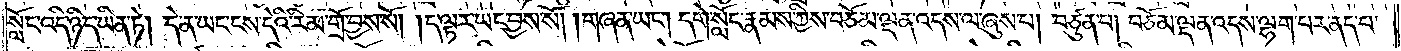སློང་འདི་ཉིད་ཡིན་ཏེ། དེ་ན་ཡང་ངས་དེའི་རིམ་གྲོ་བྱས་སོ། །ད་ལྟར་ཡང་བྱས་སོ། །གཞན་ཡང༌། དགེ་སློང་རྣམས་ཀྱིས་བཅོམ་ལྡན་འདས་ལ་ཞུས་པ། བཙུན་པ། བཅོམ་ལྡན་འདས་ལྷག་པར་ནད་པ་
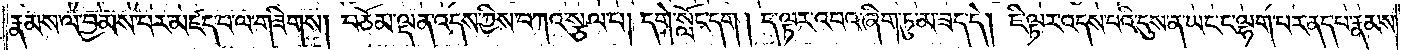རྣམས་ལ་བྱམས་པར་མཛད་པ་ལ་གཟིགས། བཅོམ་ལྡན་འདས་ཀྱིས་བཀའ་སྩལ་པ། དགེ་སློང་དག །ད་ལྟར་འབའ་ཞིག་ཏུ་མ་ཟད་དེ། ཇི་ལྟར་འདས་པའི་དུས་ན་ཡང་ང་ལྷག་པར་ནད་པ་རྣམས་
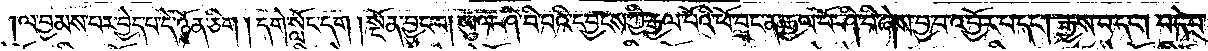ལ་བྱམས་པར་བྱེད་པ་དེ་ཉོན་ཅིག །དགེ་སློང་དག །སྔོན་བྱུང་བ། ཡུལ་ཤི་བི་པའི་དབྱངས་ཀྱི་རྒྱལ་པོའི་ཕོ་བྲང་ན་རྒྱལ་པོ་ཤི་བི་ཞེས་བྱ་བ་འབྱོར་པ་དང༌། རྒྱས་པ་དང༌། བདེ་བ་
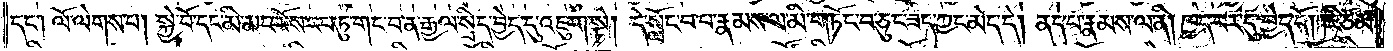དང༌། ལོ་ལེགས་པ། སྐྱེ་བོ་དང་མི་མང་པོས་རབ་ཏུ་གང་བ་ན་རྒྱལ་སྲིད་བྱེད་དུ་འཇུག་སྟེ། དེ་སློང་བ་པ་རྣམས་ལ་མི་གཏོང་བ་ཅུང་ཟད་ཀྱང་མེད་དེ། ནད་པ་རྣམས་ལ་ནི། ཁྱད་པར་དུ་བྱེད་དོ། །ཇི་ཙམ་
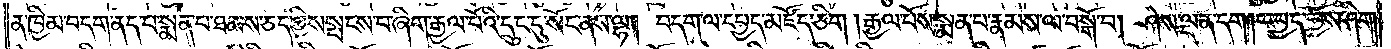ན་ཁྱིམ་བདག་ནད་པ་སྨན་པ་ཐམས་ཅད་ཀྱིས་སྤངས་པ་ཞིག་རྒྱལ་པོའི་དྲུང་དུ་སོང་ནས་ལྷ། བདག་ལ་དཔྱད་མཛོད་ཅིག །རྒྱལ་པོས་སྨན་པ་རྣམས་ལ་བསྒོ་བ། ཤེས་ལྡན་དག །དཔྱད་བྱོས་ཤིག །
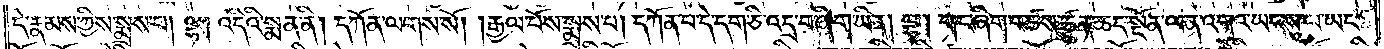དེ་རྣམས་ཀྱིས་སྨྲས་པ། ལྷ། འདིའི་སྨན་ནི། དཀོན་ལགས་སོ། །རྒྱལ་པོས་སྨྲས་པ། དཀོན་པ་དེ་དག་ཅི་འདྲ་བ་ཞིག་ཡིན། ལྷ། གང་ཞིག་བཙས་ཚུན་ཆད་སྔོན་ལན་འགའ་ཡང་སུ་ལ་ཡང་
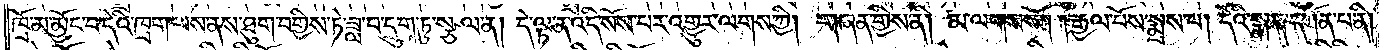ཁྲོ་མ་མྱོང་བ་དེའི་ཁྲག་ལས་ནས་ཐུག་བགྱིས་ཏེ་ཟླ་བ་དྲུག་ཏུ་སྩལ་ན། དེ་ལྟ་ན་འདི་སོས་པར་འགྱུར་ལགས་ཀྱི། གཞན་གྱིས་ནི། མ་ལགས་སོ། །རྒྱལ་པོས་སྨྲས་པ། དེའི་སྨན་དཀོན་པ་ནི།
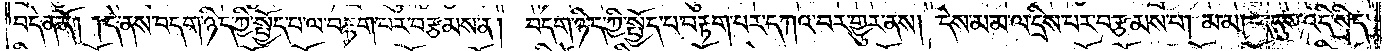བདེན་ནོ། །དེ་ནས་བདག་ཉིད་ཀྱི་སྤྱོད་པ་ལ་བརྟག་པར་བརྩམས་ན། བདག་ཉིད་ཀྱི་སྤྱོད་པ་ལ་བརྟགས་པར་དཀའ་བར་གྱུར་ནས། དེས་མ་མ་ལ་དྲིས་པར་བརྩམས་པ། མ་མ། ང་དུས་འདི་སྲིད་
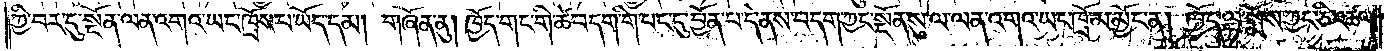ཀྱི་བར་དུ་སྔོན་ལན་འགའ་ཡང་ཁྲོས་པ་ཡོད་དམ། གཞོན་ནུ། ཁྱོད་གང་གི་ཚེ་བདག་གི་པར་དུ་བྱོན་པ་དེ་ནས་བདག་ཀྱང་སྔོན་སུ་ལ་ལན་འགའ་ཡང་ཁྲོ་མ་མྱོང་ན། ཁྱོད་ལྟ་སྨོས་ཀྱང་ཅི་འཚལ།
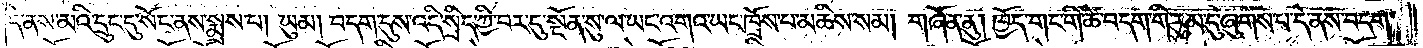དེ་ནས་མའི་དྲུང་དུ་སོང་ནས་སྨྲས་པ། ཡུམ། བདག་དུས་འདི་སྲིད་ཀྱི་བར་དུ་སྔོན་སུ་ལ་ཡང་འགའ་ཡང་ཁྲོས་པ་མཆིས་སམ། གཞོན་ནུ། ཁྱོད་གང་གི་ཚེ་བདག་གི་རུམ་དུ་ཞུགས་པ་དེ་ནས་བདག་
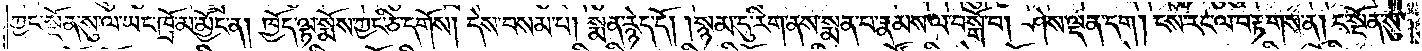ཀྱང་སྔོན་སུ་ལ་ཡང་ཁྲོ་མ་མྱོང་ན། ཁྱོད་ལྟ་སྨོས་ཀྱང་ཅི་དགོས། དེས་བསམ་པ། སྨན་རྙེད་དེ། །སྙམ་དུ་རིག་ནས་སྨན་པ་རྣམས་ལ་བསྒོ་བ། ཤེས་ལྡན་དག །ངས་རང་ལ་བརྟགས་ན། ང་སྔོན་སུ་
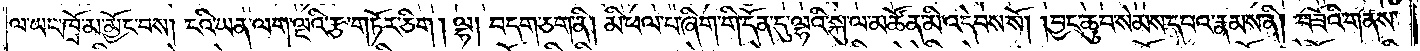ལ་ཡང་ཁྲོ་མ་མྱོང་བས། ངའི་ཡན་ལག་ལྔའི་རྩ་གཏོར་ཅིག །ལྷ། བདག་ཅག་ནི། མི་ཕལ་པ་ཞིག་གི་དོན་དུ་ལྷའི་སྐུ་ལ་མཚོན་མི་འདེབས་སོ། །བྱང་ཆུབ་སེམས་དཔའ་རྣམས་ནི། བཟོའི་གནས་
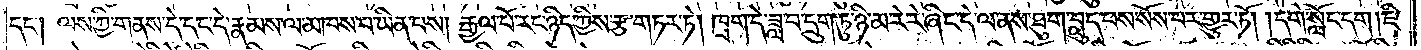དང༌། ལས་ཀྱི་གནས་དེ་དང་དེ་རྣམས་ལ་མཁས་པ་ཡིན་པས། རྒྱལ་པོ་རང་ཉིད་ཀྱིས་རྩ་གཏར་ཏེ། ཁྲག་དེ་ཟླ་བ་དྲུག་ཏུ་ཉི་མ་རེ་རེ་ཞིང་དེ་ལ་ནས་ཐུག་བླུད་པས་སོས་པར་གྱུར་ཏོ། །དགེ་སློང་དག །ཇི་
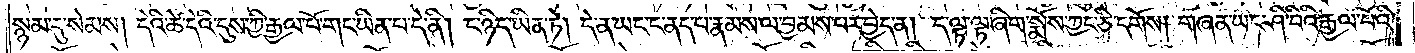སྙམ་དུ་སེམས། དེའི་ཚེ་དེའི་དུས་ཀྱི་རྒྱལ་པོ་གང་ཡིན་པ་དེ་ནི། ང་ཉིད་ཡིན་ཏེ། དེ་ན་ཡང་ང་ནད་པ་རྣམས་ལ་བྱམས་པར་བྱེད་ན། ད་ལྟ་ལྟ་ཞིག་སྨོས་ཀྱང་ཅི་དགོས། གཞན་ཡང་ཤི་བིའི་རྒྱལ་པོའི་
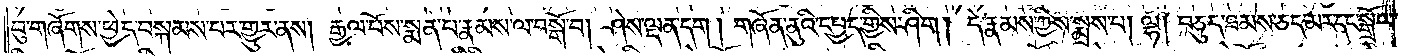བུ་གཞོགས་ཕྱེད་བསྐམས་པར་གྱུར་ནས། རྒྱལ་པོས་སྨན་པ་རྣམས་ལ་བསྒོ་བ། ཤེས་ལྡན་དག །གཞོན་ནུའི་དཔྱད་ཀྱིས་ཤིག །དེ་རྣམས་ཀྱིས་སྨྲས་པ། ལྷ། བཅུད་ཐམས་ཅད་མར་དང་སྒྲོལ་
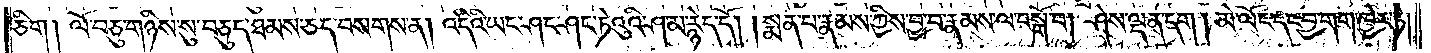ཅིག །ལོ་བཅུ་གཉིས་སུ་བཅུད་ཐམས་ཅད་བསགས་ན། འདིའི་ཡང་ཤང་ཤང་ཏེའུའི་ཤ་མ་རྙེད་དོ། །སྨན་པ་རྣམས་ཀྱིས་བྱ་བ་རྣམས་ལ་བསྒོ་བ། ཤེས་ལྡན་དང༌། མེ་ལོང་དང་བྱ་གག་ཁྱེར་ཏེ།
